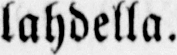lahdella.
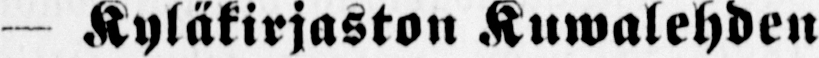— Kyläkirjaston Kuwalehden
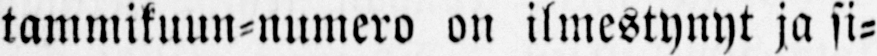tammikuun-numero on ilmestynyt ja si-
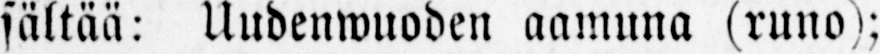sältää: Uudenwuoden aamuna (runo);
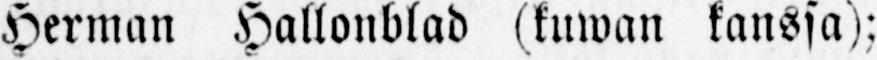Herman Hallonblad (kuwan kanssa);
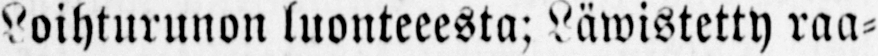Loihturunon luonteeesta: Läwistetty raa-
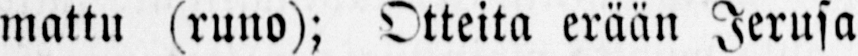mattu (runo); Otteita erään Jerusa-
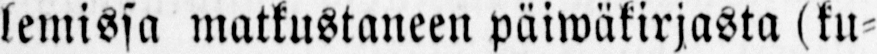lemissa matkustaneen päiwäkirjasta (ku-
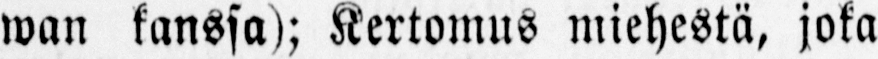wan kanssa); Kertomus miehestä, joka
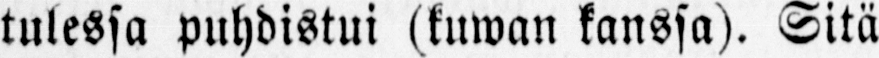tulessa puhdistui (kuwan kanssa). Sitä
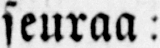seuraa:
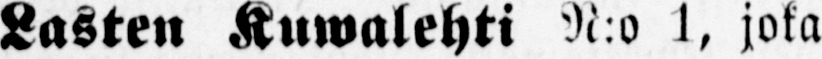Lasten Kuwalehti N:o 1, joka
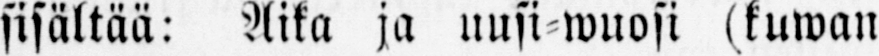sisältää: Aika ja uusi-wuosi (kuwan
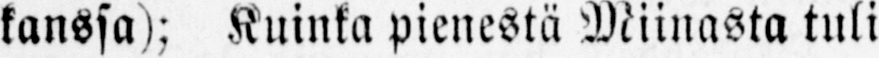kanssa); Kuinka pienestä Miinasta tuli
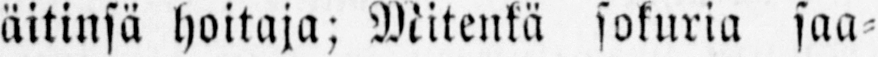äitinsä hoitaja; Mitenkä sokuria saa-
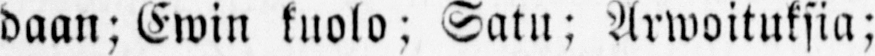daan; Ewin kuolo: Satu; Arwoituksia;
